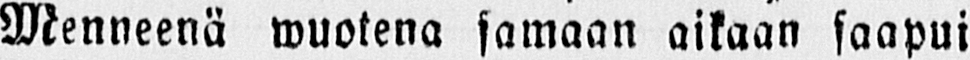Menneenä wuotena samaan aikaan saapui
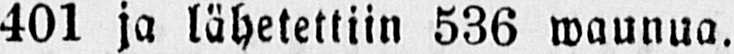401 ja lähetettiin 536 waunua.
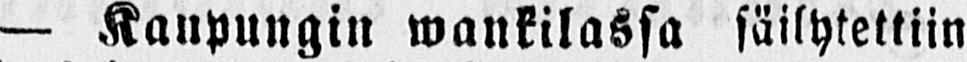— Kaupungin wankilassa säilytettiin
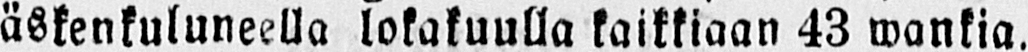äskenkuluneella lokakuulla kaikkiaan 43 wankia.
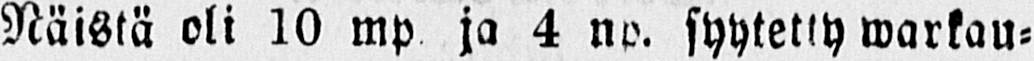Näistä oli 10 mp. ja 4 np. syytetty warkau-
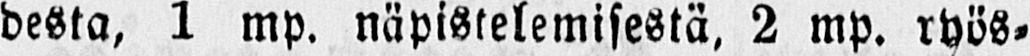desta, 1 mp. näpistelemisestä, 2 mp. ryös-
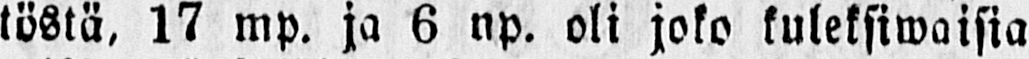töstä, 17 mp. ja 6 np. oli joko kuleksiwaisia
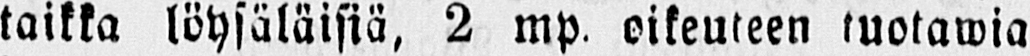taikka löysäläisiä, 2 mp. oikeuteen tuotawia
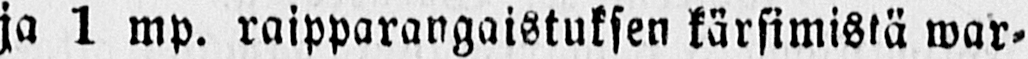ja 1 mp. raipparangaistuksen kärsimistä war-
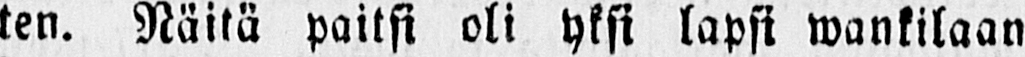ten. Näitä paitsi oli yksi lapsi wankilaan
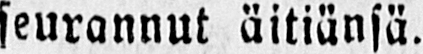seurannut äitiänsä.
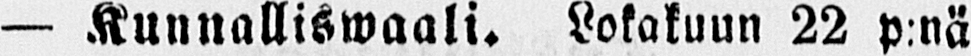— Kunnalliswaali. Lokakuun 22 p.nä
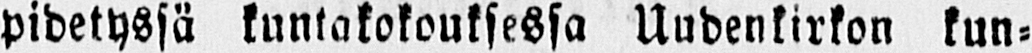pidetyssä kuntakokouksessa Uudenkirkon kun-
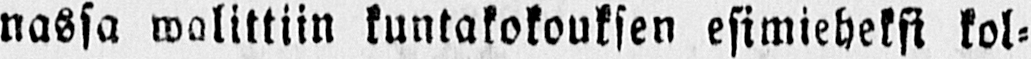nassa walittiin kuntakokouksen esimieheksi kol-
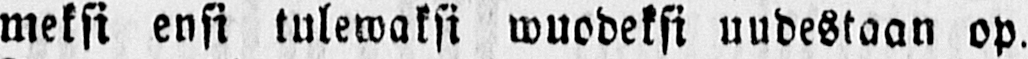meksi ensi tulewaksi wuodeksi uudestaan op.
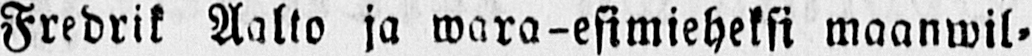Fredrik Aalto ja wara-esimieheksi maanwil-
